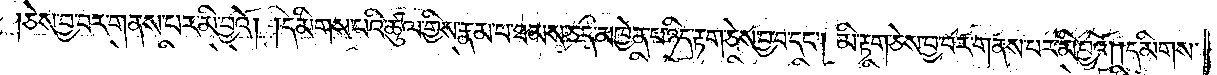ཅེས་བྱ་བར་གནས་པར་མི་བྱའོ། །དམིགས་པའི་ཚུལ་གྱིས་རྣམ་པ་ཐམས་ཅད་མཁྱེན་པ་ཉིད་རྟག་ཅེས་བྱ་བ་དང༌། མི་རྟག་ཅེས་བྱ་བར་གནས་པར་མི་བྱའོ། །དམིགས་
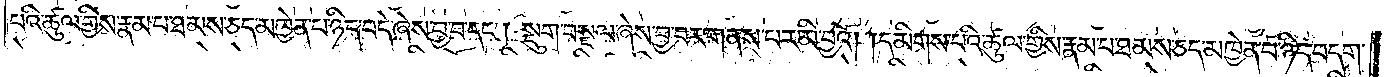པའི་ཚུལ་གྱིས་རྣམ་པ་ཐམས་ཅད་མཁྱེན་པ་ཉིད་བདེ་ཞེས་བྱ་བ་དང༌། སྡུག་བསྔལ་ཞེས་བྱ་བར་གནས་པར་མི་བྱའོ། །དམིགས་པའི་ཚུལ་གྱིས་རྣམ་པ་ཐམས་ཅད་མཁྱེན་པ་ཉིད་བདག་
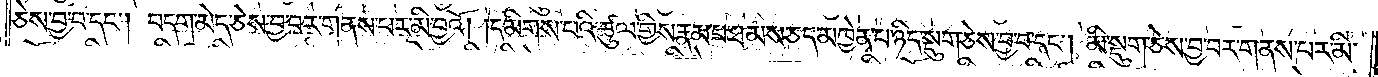ཅེས་བྱ་བ་དང༌། བདག་མེད་ཅེས་བྱ་བར་གནས་པར་མི་བྱའོ། །དམིགས་པའི་ཚུལ་གྱིས་རྣམ་པ་ཐམས་ཅད་མཁྱེན་པ་ཉིད་སྡུག་ཅེས་བྱ་བ་དང༌། མི་སྡུག་ཅེས་བྱ་བར་གནས་པར་མི་
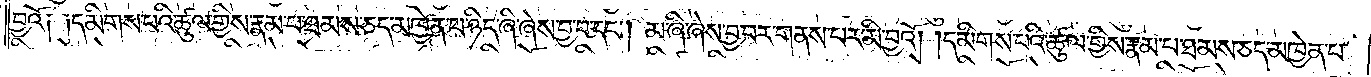བྱའོ༏ ༏དམིགས་པའི་ཚུལ་གྱིས་རྣམ་པ་ཐམས་ཅད་མཁྱེན་པ་ཉིད་ཞི་ཞེས་བྱ་བ་དང༌། མ་ཞི་ཞེས་བྱ་བར་གནས་པར་མི་བྱའོ། །དམིགས་པའི་ཚུལ་གྱིས་རྣམ་པ་ཐམས་ཅད་མཁྱེན་པ་
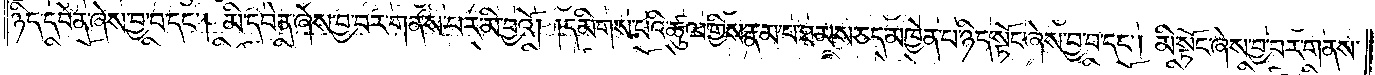ཉིད་དབེན་ཞེས་བྱ་བ་དང༌། མི་དབེན་ཞེས་བྱ་བར་གནས་པར་མི་བྱའོ། །དམིགས་པའི་ཚུལ་གྱིས་རྣམ་པ་ཐམས་ཅད་མཁྱེན་པ་ཉིད་སྟོང་ཞེས་བྱ་བ་དང༌། མི་སྟོང་ཞེས་བྱ་བར་གནས་
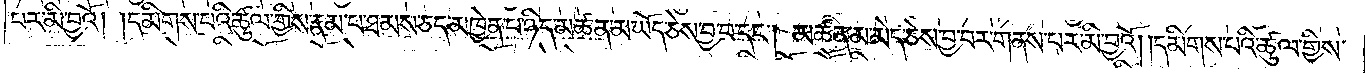པར་མི་བྱའོ། །དམིགས་པའི་ཚུལ་གྱིས་རྣམ་པ་ཐམས་ཅད་མཁྱེན་པ་ཉིད་མཚན་མ་ཡོད་ཅེས་བྱ་བ་དང༌། མཚན་མ་མེད་ཅེས་བྱ་བར་གནས་པར་མི་བྱའོ། །དམིགས་པའི་ཚུལ་གྱིས་
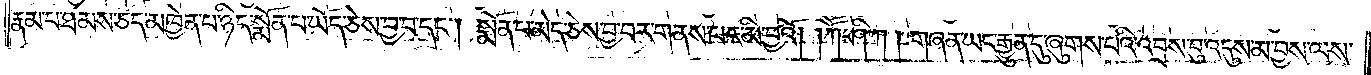རྣམ་པ་ཐམས་ཅད་མཁྱེན་པ་ཉིད་སྨོན་པ་ཡོད་ཅེས་བྱ་བ་དང༌། སྨོན་པ་མེད་ཅེས་བྱ་བར་གནས་པར་མི་བྱའོ། །ཀཽ་ཤི་ཀ །གཞན་ཡང་རྒྱུན་དུ་ཞུགས་པའི་འབྲས་བུ་འདུས་མ་བྱས་ལས་
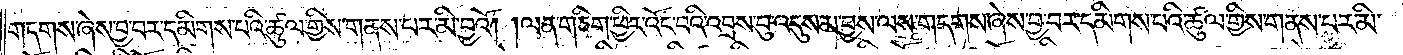གདགས་ཞེས་བྱ་བར་དམིགས་པའི་ཚུལ་གྱིས་གནས་པར་མི་བྱའོ། །ལན་ཅིག་ཕྱིར་འོང་བའི་འབྲས་བུ་འདུས་མ་བྱས་ལས་གདགས་ཞེས་བྱ་བར་དམིགས་པའི་ཚུལ་གྱིས་གནས་པར་མི་
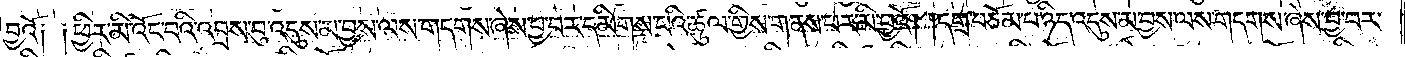བྱའོ༏ ༏ཕྱིར་མི་འོང་བའི་འབྲས་བུ་འདུས་མ་བྱས་ལས་གདགས་ཞེས་བྱ་བར་དམིགས་པའི་ཚུལ་གྱིས་གནས་པར་མི་བྱའོ། །དགྲ་བཅོམ་པ་ཉིད་འདུས་མ་བྱས་ལས་གདགས་ཞེས་བྱ་བར་
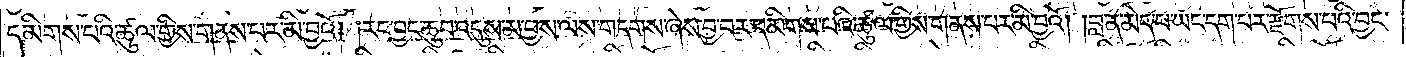དམིགས་པའི་ཚུལ་གྱིས་གནས་པར་མི་བྱའོ། །རང་བྱང་ཆུབ་འདུས་མ་བྱས་ལས་གདགས་ཞེས་བྱ་བར་དམིགས་པའི་ཚུལ་གྱིས་གནས་པར་མི་བྱའོ། །བླ་ན་མེད་པ་ཡང་དག་པར་རྫོགས་པའི་བྱང་
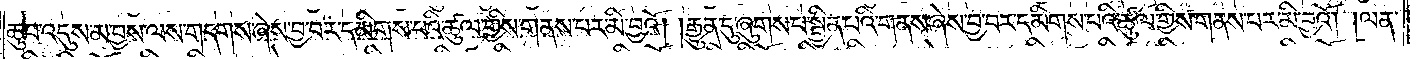ཆུབ་འདུས་མ་བྱས་ལས་གདགས་ཞེས་བྱ་བར་དམིགས་པའི་ཚུལ་གྱིས་གནས་པར་མི་བྱའོ། །རྒྱུན་དུ་ཞུགས་པ་སྦྱིན་པའི་གནས་ཞེས་བྱ་བར་དམིགས་པའི་ཚུལ་གྱིས་གནས་པར་མི་བྱའོ། །ལན་
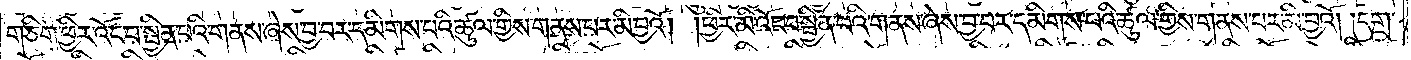ཅིག་ཕྱིར་འོང་བ་སྦྱིན་པའི་གནས་ཞེས་བྱ་བར་དམིགས་པའི་ཚུལ་གྱིས་གནས་པར་མི་བྱའོ། །ཕྱིར་མི་འོང་བ་སྦྱིན་པའི་གནས་ཞེས་བྱ་བར་དམིགས་པའི་ཚུལ་གྱིས་གནས་པར་མི་བྱའོ། །དགྲ་
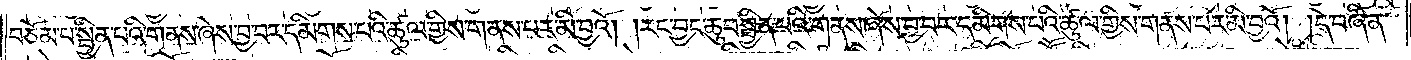བཅོམ་པ་སྦྱིན་པའི་གནས་ཞེས་བྱ་བར་དམིགས་པའི་ཚུལ་གྱིས་གནས་པར་མི་བྱའོ། །རང་བྱང་ཆུབ་སྦྱིན་པའི་གནས་ཞེས་བྱ་བར་དམིགས་པའི་ཚུལ་གྱིས་གནས་པར་མི་བྱའོ། །དེ་བཞིན་
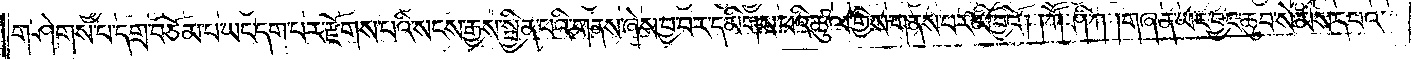གཤེགས་པ་དགྲ་བཅོམ་པ་ཡང་དག་པར་རྫོགས་པའི་སངས་རྒྱས་སྦྱིན་པའི་གནས་ཞེས་བྱ་བར་དམིགས་པའི་ཚུལ་གྱིས་གནས་པར་མི་བྱའོ། །ཀཽ་ཤི་ཀ །གཞན་ཡང་བྱང་ཆུབ་སེམས་དཔའ་
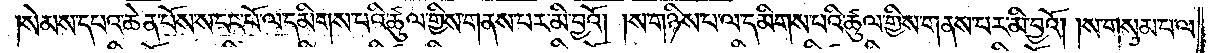སེམས་དཔའ་ཆེན་པོས་ས་དང་པོ་ལ་དམིགས་པའི་ཚུལ་གྱིས་གནས་པར་མི་བྱའོ། །ས་གཉིས་པ་ལ་དམིགས་པའི་ཚུལ་གྱིས་གནས་པར་མི་བྱའོ། །ས་གསུམ་པ་ལ་
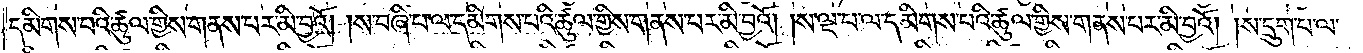དམིགས་པའི་ཚུལ་གྱིས་གནས་པར་མི་བྱའོ། །ས་བཞི་པ་ལ་དམིགས་པའི་ཚུལ་གྱིས་གནས་པར་མི་བྱའོ། །ས་ལྔ་པ་ལ་དམིགས་པའི་ཚུལ་གྱིས་གནས་པར་མི་བྱའོ། །ས་དྲུག་པ་ལ་
